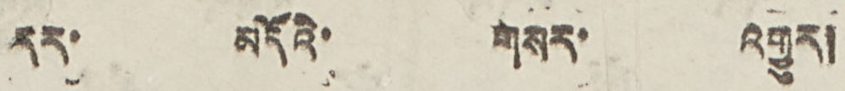དར་ མདོའི་ གསར་ འགྱུར།
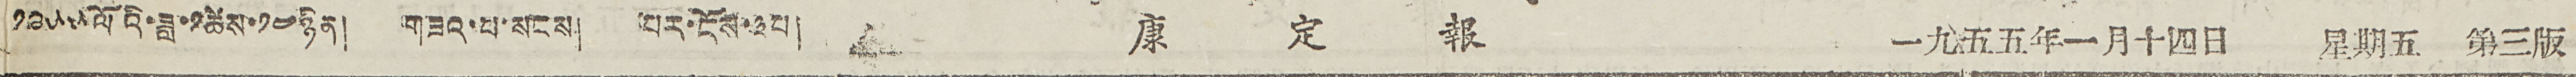༡༩༥༥ལོའི་ཟླ་༡ཚེས་༡༤ཉིན། གཟའ་བ་སངས། པར་ངོས་༣པ། 康 定 報 一九五五年一月十四日 星期五 第三版
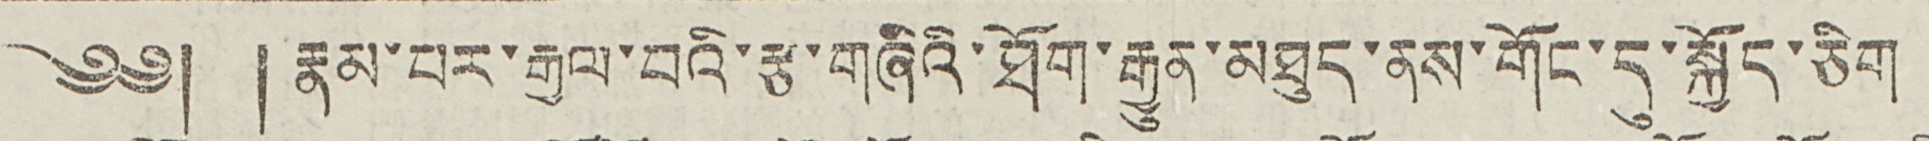༄༅། །རྣམ་པར་རྒྱལ་བའི་རྩ་གཞིའི་ཐོག་རྒྱུན་མཐུད་ནས་གོང་དུ་སྐྱོད་ཅིག
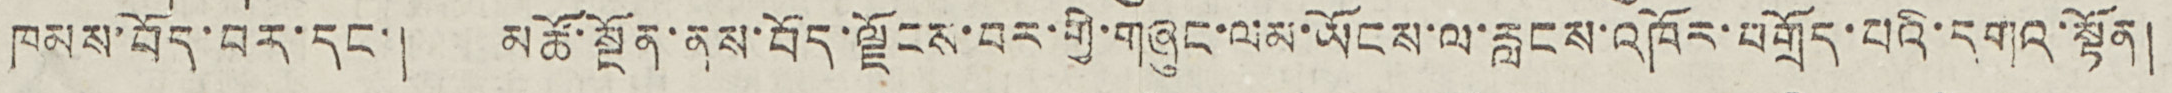ཁམས་བོད་བར་དང་། མཚོ་སྔོན་ནས་བོད་ལྗོངས་བར་གྱི་གཞུང་ལམ་ཡོངས་ལ་རླངས་འཁོར་བགྲོད་པའི་དགའ་སྟོན།
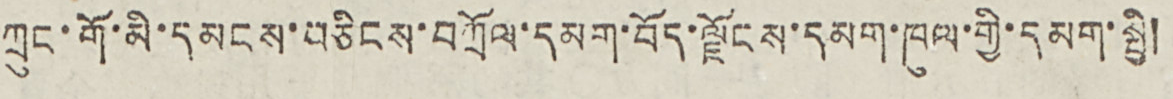ཀྲུང་གོ་མི་དམངས་བཅིངས་བཀྲོལ་དམག་བོད་ལྗོངས་དམག་ཁུལ་གྱི་དམག་སྤྱི།
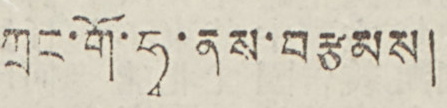ཀྲང་གོ་ཧྭ་ནས་བརྩམས།
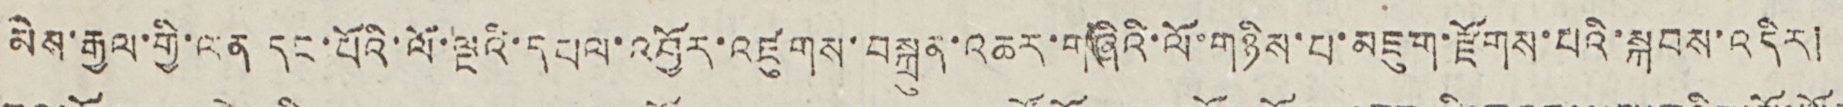མེས་རྒྱལ་གྱི་ལན དང་པོའི་ལོ་ལྔའི་དཔལ་འབྱོར་འཛུགས་བསྐྲུན་འཆར་གཞིའི་ལོ་གཉིས་པ་མཇུག་རྫོགས་པའི་སྐབས་འདིར།
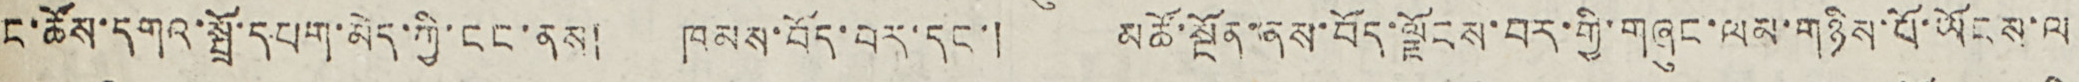ང་ཚོས་དགའ་སྤྲོ་དཔག་མེད་ཀྱི་ངང་ནས། ཁམས་བོད་བར་དང་། མཚོ་སྔོན་ནས་བོད་ལྗོངས་བར་གྱི་གཞུང་ལམ་གཉིས་པོ་ཡོངས་ལ
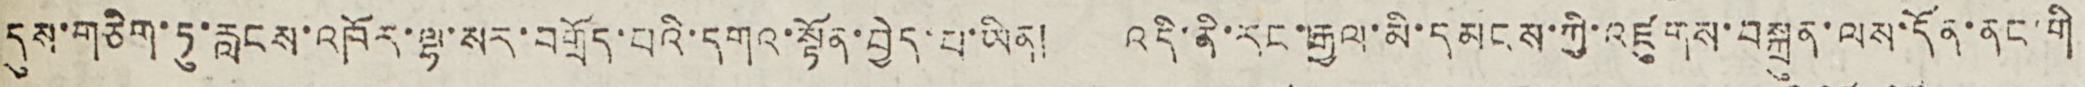དུས་གཅིག་ཏུ་རླངས་འཁོར་ལྷ་སར་བགྲོད་པའི་དགའ་སྟོན་བྱེད་པ་ཡིན། འདི་ནི་རང་རྒྱལ་མི་དམངས་ཀྱི་འཛུགས་བསྐྲུན་ལས་དོན་ནང་གི
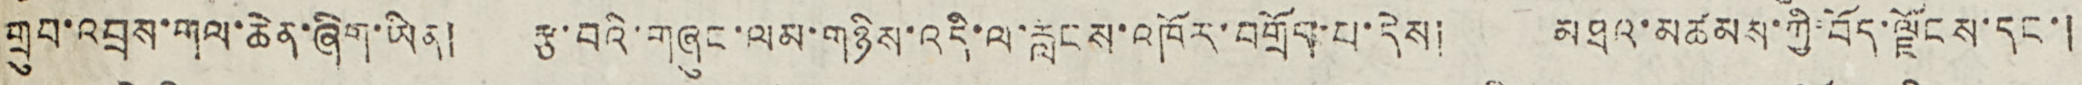གྲུབ་འབྲས་གལ་ཆེན་ཞིག་ཡིན། རྩ་བའི་གཞུང་ལམ་གཉིས་དི་ལ་རླངས་འཁོར་བགྲོད་པ་དེས། མཐའ་མཚམས་ཀྱི་བོད་ལྗོངས་དང་།
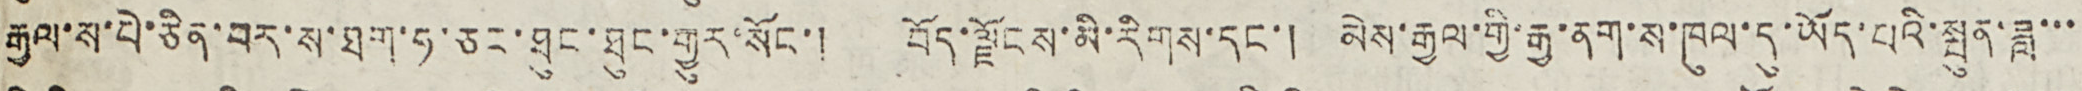རྒྱལ་ས་པེ་ཅིན་བྱར་ས་ཐག་ཧ་ཅང་ཐུང་ཐུང་གྱུར་སོང་། བོད་ལྗོངས་མི་རིགས་དང་། མེས་རྒྱལ་གྱི་རྒྱ་ནག་ས་ཁུལ་དུ་ཡོད་པའི་སྤུན་ཟླ་་་
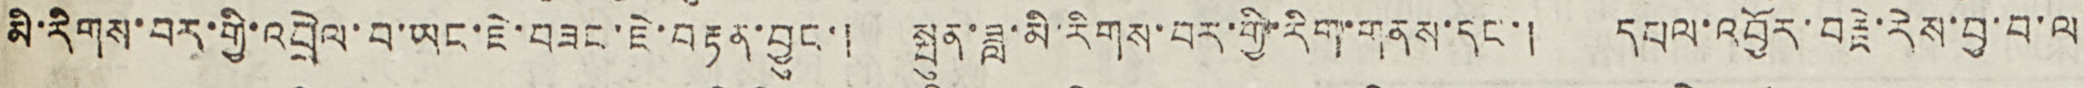མི་རིགས་བར་གྱི་འབྲེལ་བ་ཡང་ཇེ་བཟང་ཇེ་བརྟན་བྱུང་། སྤུན་ཟླ་མི་རིགས་བར་གྱི་རིག་གནས་དང་། དཔལ་འབྱོར་བརྗེ་རེས་བྱ་བ་ལ
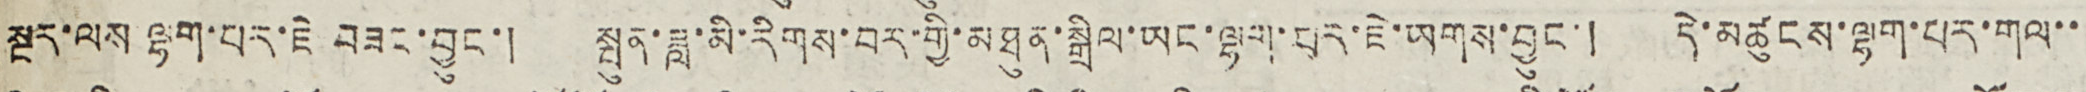སྔར་ལས ལྷག་པར་ཇེ བཟང་བྱུང་། སྤུན་ཟླ་མི་རིགས་བར་གྱི་མཐུན་སྒྲིལ་ཡང་ལྷག་པར་ཇེ་ཡགས་བྱུང་། དེ་མཚུངས་ལྷག་པར་གལ་་
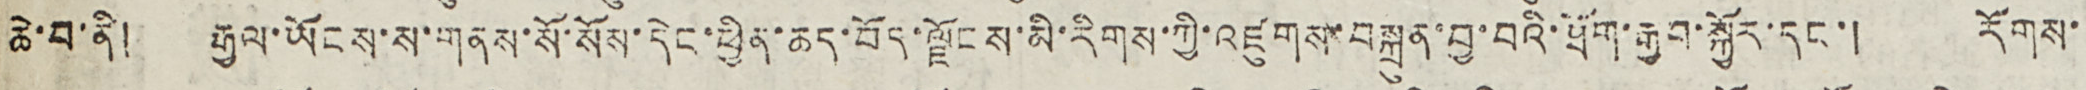ཆེ་བ་ནི། རྒྱལ་ཡོངས་ས་གནས་སོ་སོས་དེང་ཕྱིན་ཆད་བོད་ལྗོངས་མི་རིགས་ཀྱི་འཛུགས་བསྐྲུན་བྱ་བའི་ཐོག་རྒྱབ་སྐྱོར་དང་། རོགས་
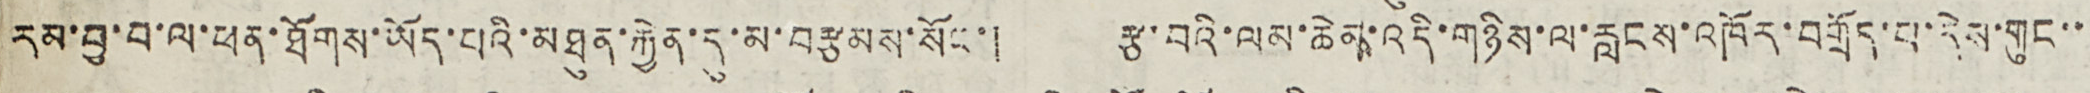རམ་བྱ་བ་ལ་ཕན་ཐོགས་ཡོད་པའི་མཐུན་རྐྱེན་དུ་མ་བརྩམས་སོང་། རྩ་བའི་ལམ་ཆེན་འདི་གཉིས་ལ་རླངས་འཁོར་བགྲོད་པ་དེས་གུང་་
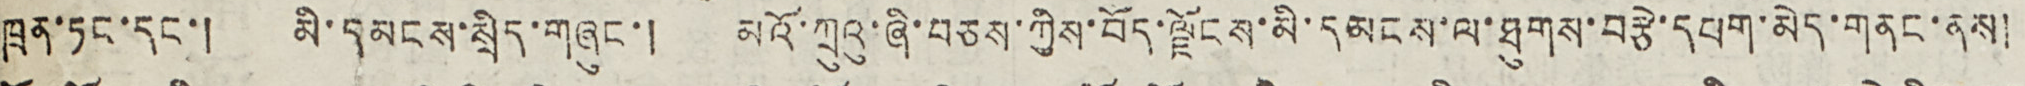ཁྲན་ཏང་དང་། མི་དམངས་སྲིད་གཞུང་། མའོ་ཀྲུའུ་ཞི་བཅས་ཀྱིས་བོད་ལྗོངས་མི་དམངས་ལ་ཐུགས་བརྩེ་དཔག་མེད་གནང་ནས།
